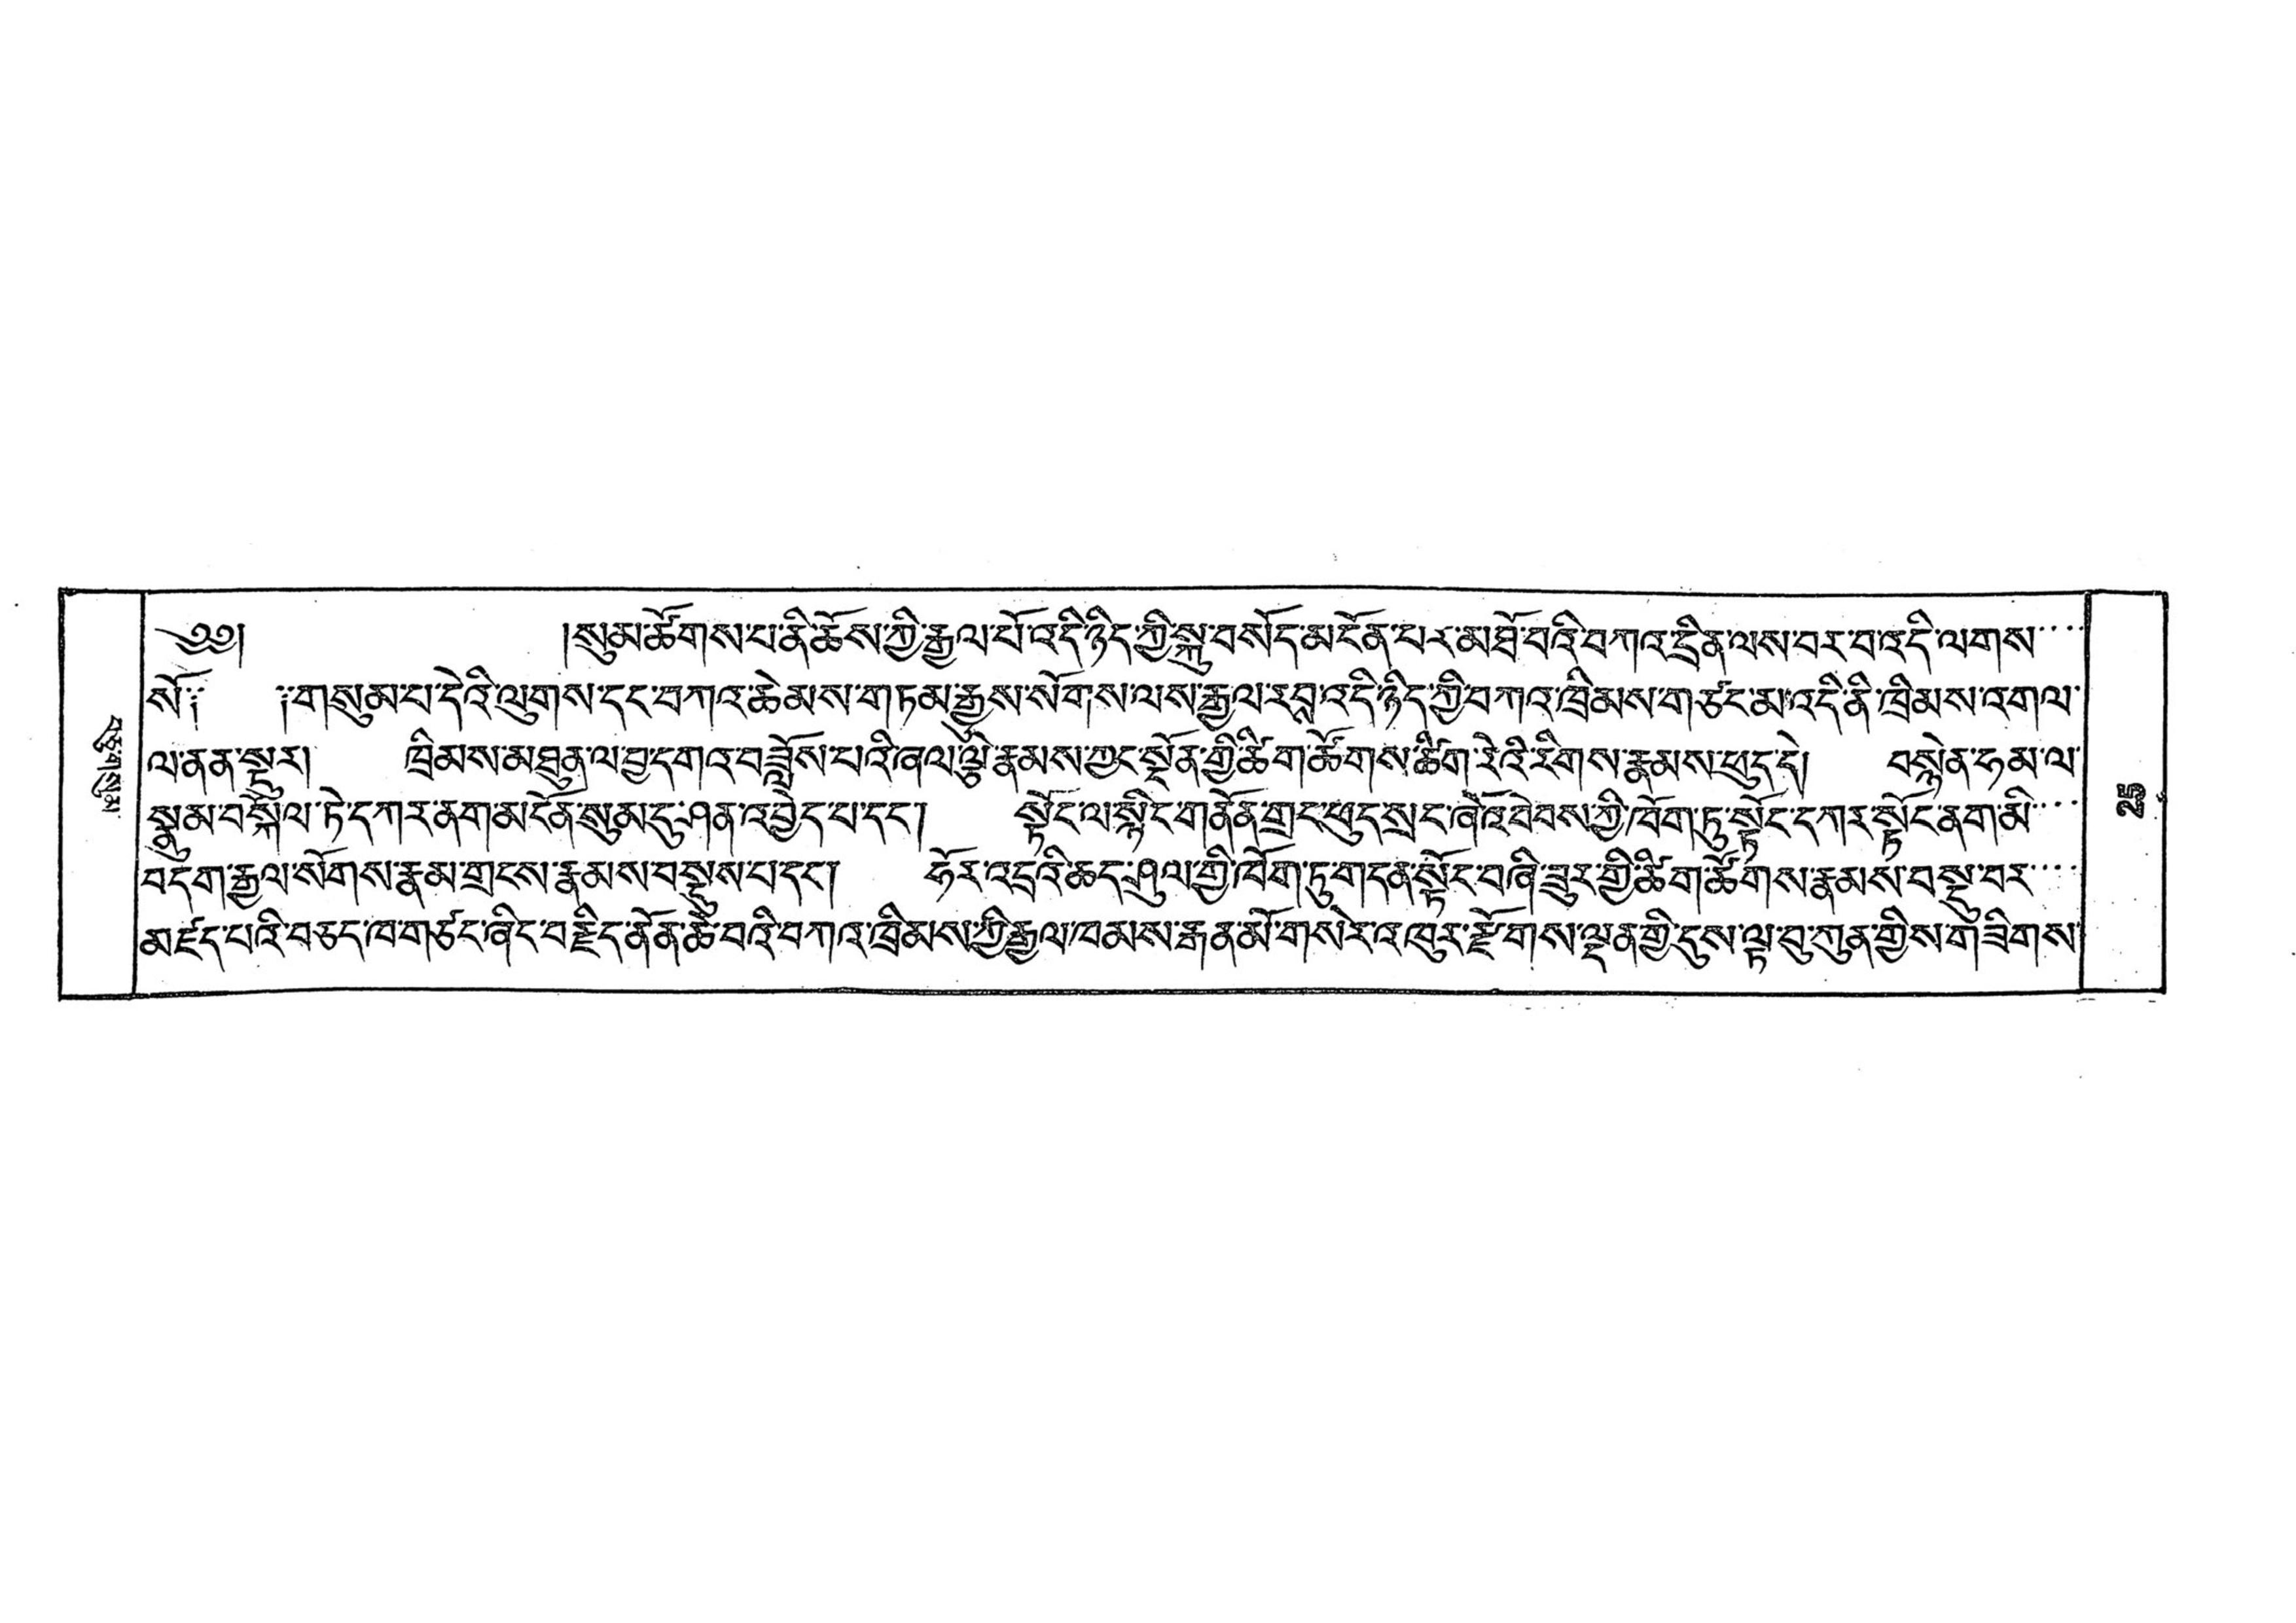བཅུ་གསུམ་
༄༅། །སུམ་ཚོགས་པ་ནི་ཆོས་ཀྱི་རྒྱལ་པོ་འདི་ཉིད་ཀྱི་སྐུ་བསོད་མངོན་པར་མཐོ་བའི་བཀའ་དྲིན་ལས་བར་བ་འདི་ལགས་་་
སོ༑ ༑གསུམ་པ་དེའི་ལུགས་དང་བཀའ་ཆེམས་གཏམ་རྒྱུས་སོགས་ལས་རྒྱལ་རབས་འདི་ཉིད་ཀྱི་བཀའ་ཁྲིམས་གཙང་མ་འདི་ནི་ཁྲིམས་འགལ་
ལ་ནན་སྡུར། ཁྲིམས་མཐུན་ལ་བྱ་དགའ་བཟློས་པའི་ཞལ་ལྕེ་རྣམས་ཀྱང་སྔོན་གྱི་ཚིག་ཚོགས་ཚིག་རེའི་རིགས་རྣམས་ཕུད་དེ། བསྙེན་ཧམ་ལ་
སྣུམ་བསྐོལ་ཏེ་དཀར་ནག་མངོན་སུམ་དུ་ཤན་འབྱེད་པ་དང་། སྟོང་ལ་སྙིང་གནོན་གྲང་ཕུད་སྲང་ཞོའ་བེབས་ཀྱི་ཁོག་ཏུ་སྟོང་དཀར་སྟོང་ནག་མི་་་
བདག་རྒྱལ་སོགས་རྣམ་གྲངས་རྣམས་བསྡུས་པ་དང་། ཧོར་འདྲའི་ཆད་ཤུལ་གྱི་ཁོག་ཏུ་གདན་སྟོང་བཞི་ཟུར་གྱི་ཚིག་ཚོགས་རྣམས་བསྡུ་བར་་་་
མཛད་པའི་བཅད་ཁ་གཙང་ཞིང་བརྗིད་ནོན་ཚེ་བའི་བཀའ་ཁྲིམས་ཀྱི་རྒྱལ་ཁམས་རྒན་མོ་གསེར་འཁུར་རྫོགས་ལྡན་གྱི་དུས་ལྟ་བུ་ཀུན་གྱིས་གཟིགས་
